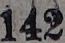142
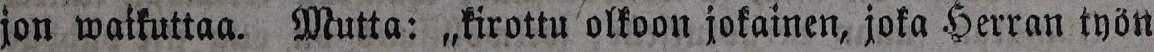jon waikuttaa. Mutta: „kirottu olkoon jokainen, joka Herran työn
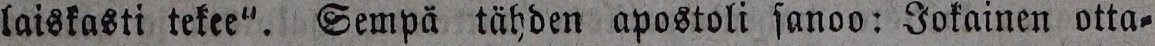laiskasti tekee". Sempä tähden apostoli sanoo: Jokainen otta-
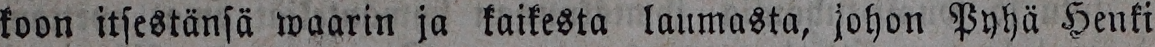koon itsestänsä waarin ja kaikesta laumasta, johon Pyhä Henki
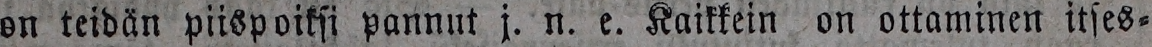on teidän piispoiksi pannut j. n. e. Kaikkein on ottaminen itses-
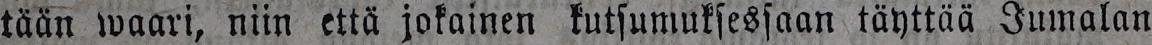tään waari, niin että jokainen kutsumuksessaan täyttää Jumalan
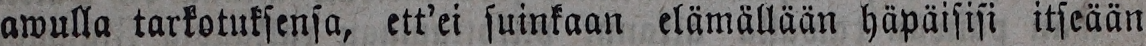awulla tarkotuksensa, ett'ei suinkaan elämällään häpäisisi itseään
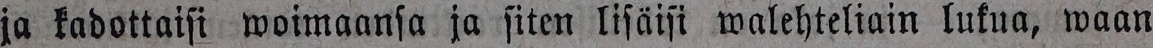ja kadottaisi woimaansa ja siten lisäisi walehteliain lukua, waan
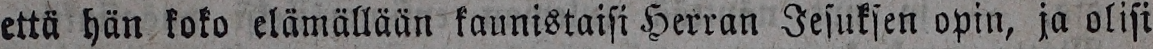että hän koko elämällään kaunistaisi Herran Jesuksen opin, ja olisi
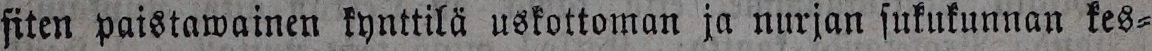siten paistawainen kynttilä uskottoman ja nurjan sukukunnan kes-
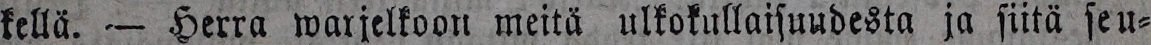kellä.- Herra warjelkoon meitä ulkokullaisuudesta ja siitä seu-
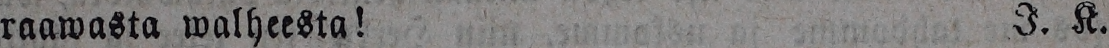raawasta walheesta! J. K.
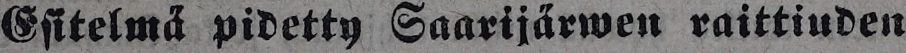Esitelmä pidetty Saarijärwen raittiuden
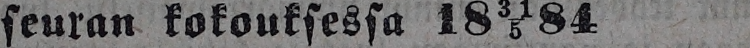seuran kokouksessa 18 31/5 84
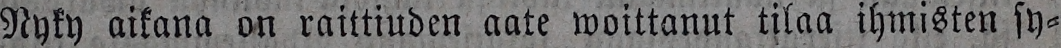Nyky aikana on raittiuden aate woittanut tilaa ihmisten sy-
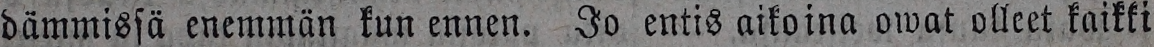dämmissä enemmän kun ennen. Jo entis aikoina owat olleet kaikki
